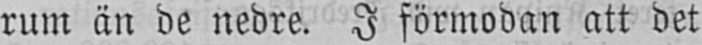rum än de nedre. I förmodan att det
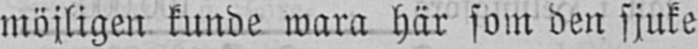möjligen kunde wara här som den sjuke
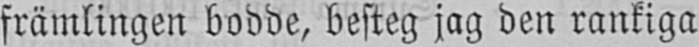främlingen bodde, besteg jag den rankiga
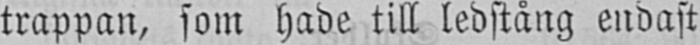trappan, som hade till ledstång endast
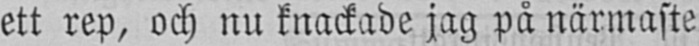ett rep, och nu knackade jag på närmaste
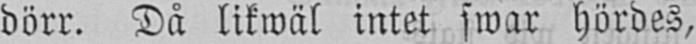dörr. Då likwäl intet swar hördes,
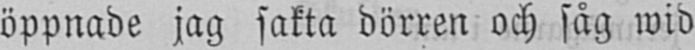öppnade jag sakta dörren och såg wid
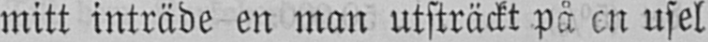mitt inträde en man utsträckt på en usel
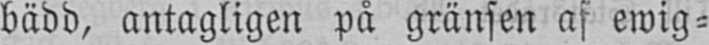bädd, antagligen på gränsen af ewig-
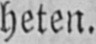heten.
